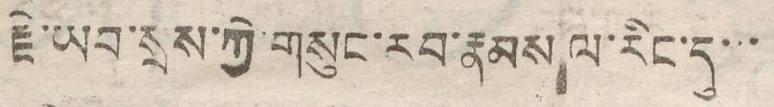རྗེ་ཡབ་སྲས་ཀྱི་གསུང་རབ་རྣམས ལ་རིང་དུ་་
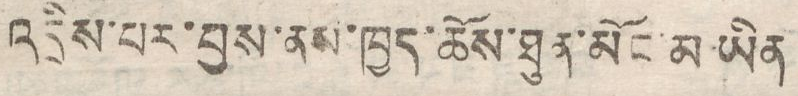འདྲིས་པར་བྱས་ནས་ཁྱད་ཆོས་ཐུན་མོང་མ ཡིན
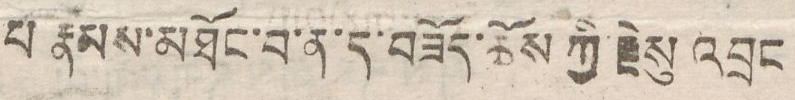པ རྣམས་མཐོང་བ་ན་ད་བཟོད་ཆོས ཀྱི་རྗེསུ འབྲང
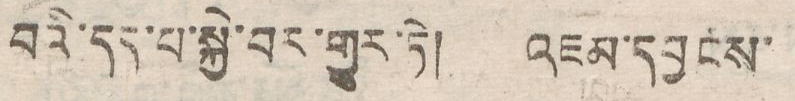བའི་དད་པ་སྐྱེ་བར་གྱུར་ཏེ། འཇམ་དབྱངས་
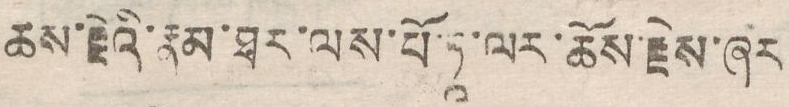ཆས་རྗེའི་རྣམ་ཐར་ལས་པོ་ཏཱ་ལར་ཆོས་རྗེས་ཞར
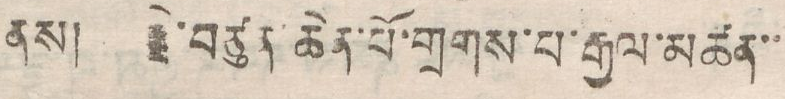ནས། རྗེ་བཙུན་ཆེན་པོ་གྲགས་པ་རྒྱལ་མཚན་་
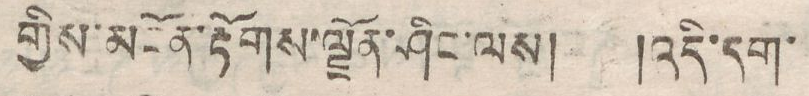གྱིས་མངོན་རྟོགས་ལྗོན་ཤིང་ལས། །འདི་དག་
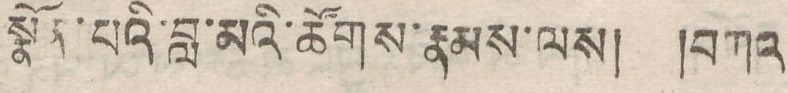སྣོན་པའི་བླ་མའི་ཚོགས་རྣམས་ལས། །བཀའ
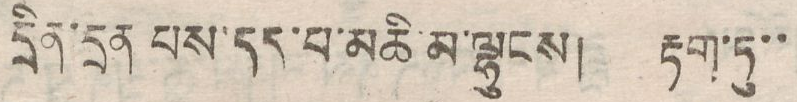དྲིན་དྲན པས་དད་པ་མཆི་མ་ལྷུངས། རྟག་ཏུ་་
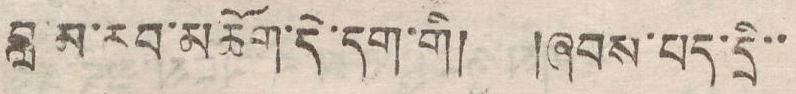བླ་མ་རབ་མཆོག་དེ་དག་གི། །ཞབས་པད་དྲི་་
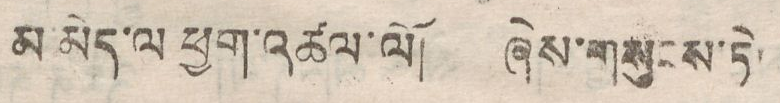མ མེད་ལ ཕྱག་འཚལ་ལོ། ཞེས་གསུངས་ཏེ་
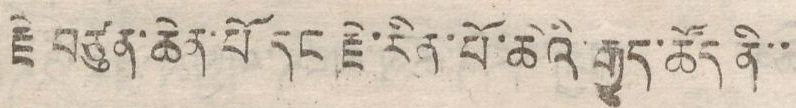རྗེ བཙུན་ཆེན་པོ དང་རྗེ་རིན་པོ་ཆེའི་རྒྱུད་ཚོད ནི་་
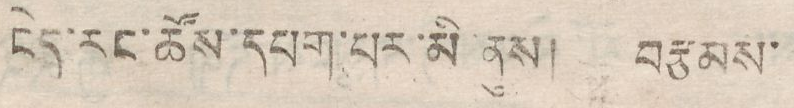ངེད་རང་ཚོས་དཔག་པར་མི་ནུས། བརྩམས་
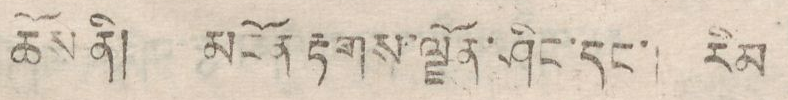ཆོས་ནི། མངོན རྟགས་ལྗོན་ཤིང་དང་། རིམ
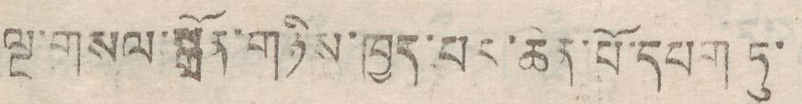ལྔ་གསལ་སྒྲོན་གཉིས་ཁྱད་པར་ཆེན་པོ་དཔག ཏུ་
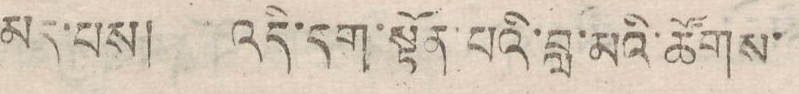མད་པས། འདི་དག་སྟོན་པའི་བླ་མའི་ཚོགས་
